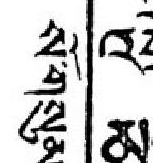སོ་གསུམ་
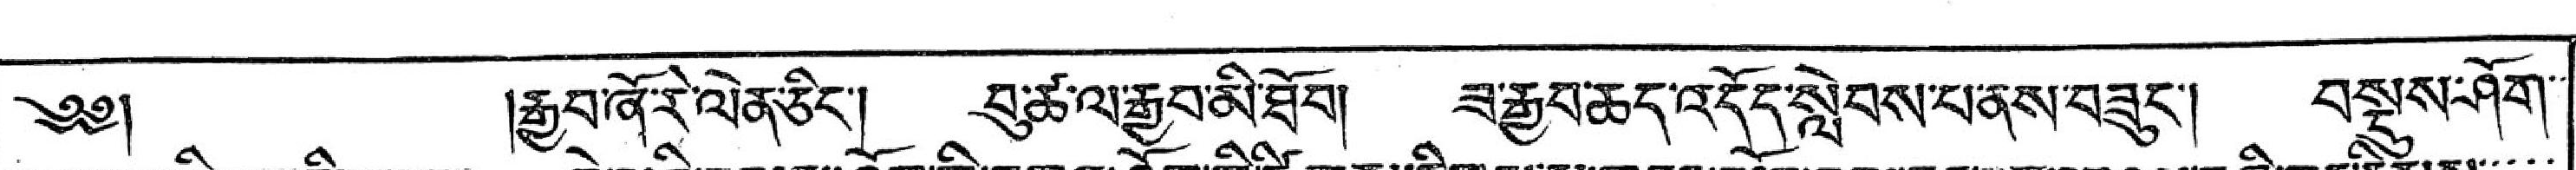༄༅།  །རྒྱབ་ཞོ་རེ་ལེན་ཅིང་། བུ་ཚ་ལ་རྒྱབ་མི་ཐོབ། ཟ་རྒྱབ་ཆད་འདོད་སླེབས་པ་ནས་བཟུང་། བསྡུས་ཤོག་་
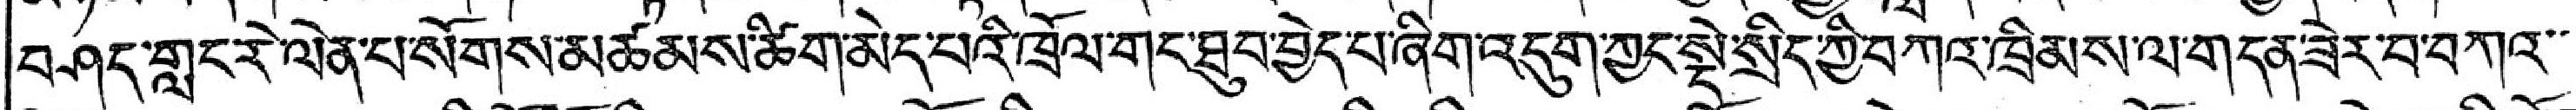བཤད་གླང་རེ་ལེན་པ་སོགས་མཚམས་ཚིག་མེད་པའི་ཁྲོལ་གང་ཐུབ་བྱེད་པ་ཞིག་འདུག་ཀྱང་སྡེ་སྲིད་ཀྱི་བཀའ་ཁྲིམས་ལ་གདན་ཟེར་བ་བཀའ་་་
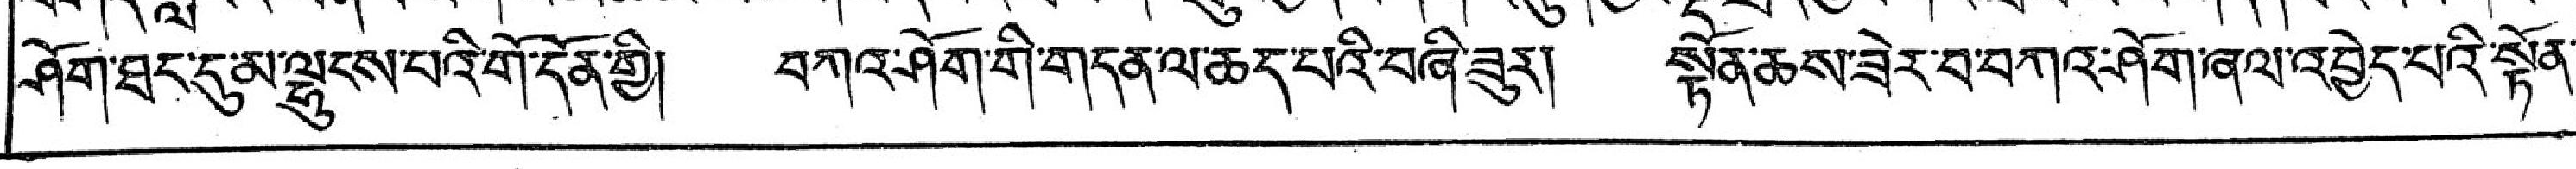ཤོག་ཐད་དུ་མ་ལྷུངས་པའི་གོ་དོན་གྱི། བཀའ་ཤོག་གི་གདན་ལ་ཆད་པའི་བཞི་ཟུར། སྟོན་ཆས་ཟེར་བ་བཀའ་ཤོག་ཞལ་འབྱེད་པའི་སྟོན་
